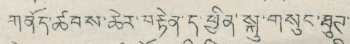གནོད་ཚབས་ཆེར་བརྟེན་དུ་ཕྱིན་སྐུ་གསུང་ཐུཊ་
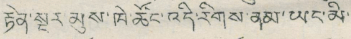རྟེན་སྔར་མུས་ཁེ་ཚོང་འདི་རིགས་ནམ་ཡང་མི་
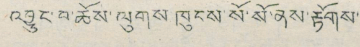འབྱུང་བ་ཆོས་ལུགས ཁུངས་སོ་སོ་ནས་རྟོགས་
